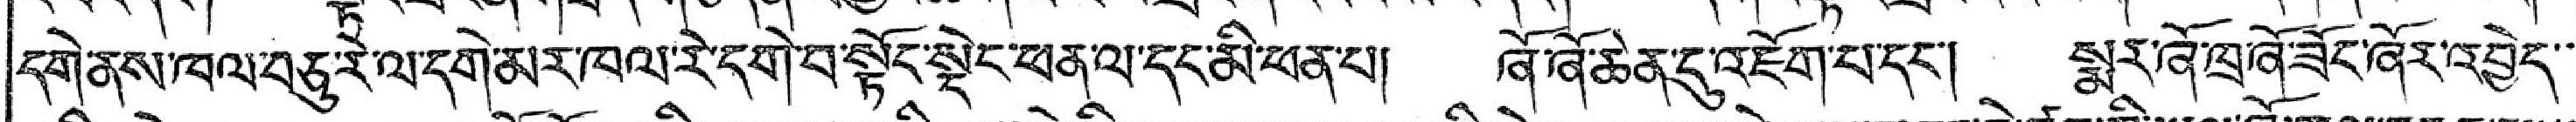དགེ་ནས་ཁལ་བཅུ་རེ་ལ་དགེ་མར་ཁལ་རེ་དགེ་བ་སྟོང་སྡེང་ཕན་ལ་དང་མི་ཕན་པ། ཞོ་ཞོ་ཆེན་དུ་འཇོག་པ་དང་། སྨར་ཞོ་ཁྲ་ཞོ་ཟོང་ཞོར་འབྱེད་་
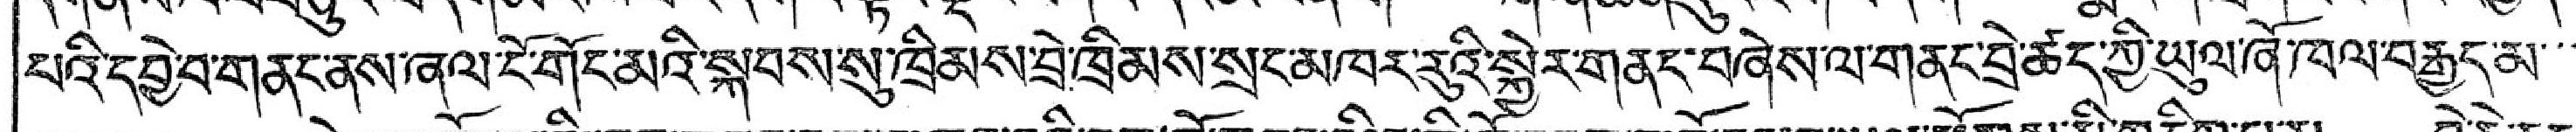པའི་དབྱེ་བ་གནང་ནས་ཞལ་ངོ་གོང་མའི་སྐབས་སུ་ཁྲིམས་བྲེ་ཁྲིམས་སྲང་མཁར་རུའི་སྐྱེར་གནང་བཞེས་ལ་གནང་བྲེ་ཚད་ཀྱི་ཡུལ་ཞོ་ཁལ་བརྒྱད་མ་་་
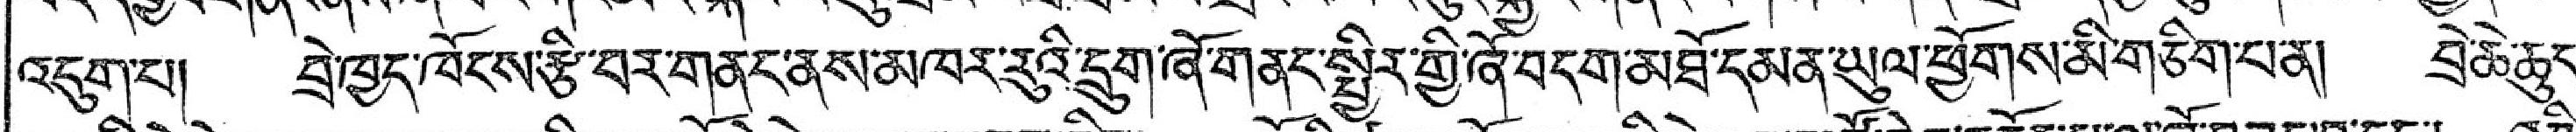འདུག་པ། བྲེ་བྱེད་ཁོངས་རྩི་བར་གནང་ནས་མཁར་རུའི་དྲུག་ཞོ་གནང་སྤྱིར་གྱི་ཞོ་བདག་མཐོ་དམན་ཡུལ་ཕྱོགས་མི་གཅིག་པ་ན། བྲེ་ཆེ་ཆུང་
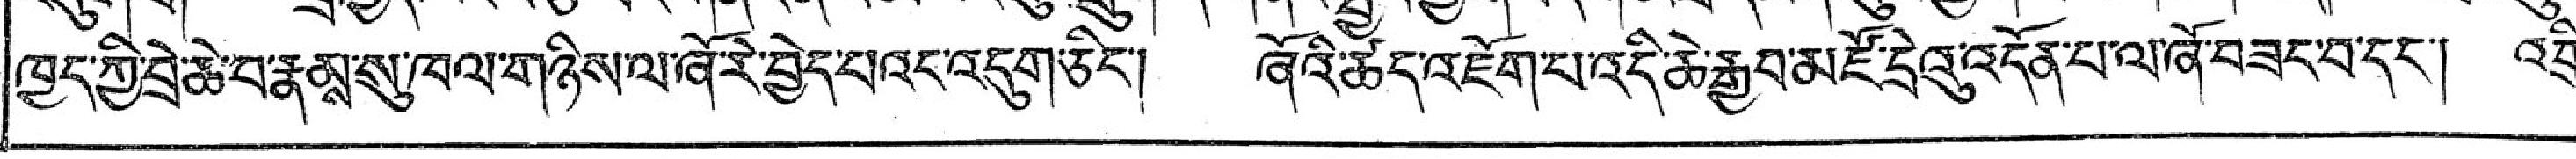ཁྱད་ཀྱི་བྲེ་ཆེ་བ་རྣམས་སུ་ཁལ་གཉིས་ལ་ཞོ་རེ་བྱེད་པའང་འདུག་ཅིང་། ཞོའི་ཚད་འཇོག་པ་འདི་ཆེ་རྒྱབ་མཛོ་དྲེའུ་འདོན་པ་ལ་ཞོ་བཟང་བ་དང་། འབྲ་
